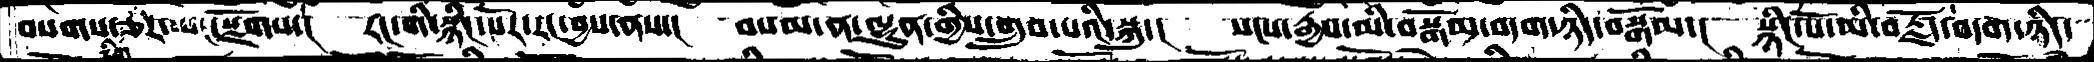བསགས་ཅིག་ཅིར་ཡང་སྫོགས་།  རང་གི་སྙིང་པོར་རང་བྱས་ནས་།  བསམ་ན་ལྷུན་གྱིས་གྲུབ་པའི་སྐུ་།  སངས་རྒྱས་མི་བསྒོམ་བདག་ཉིད་བསྒོམ་།  སྙིང་པོ་མི་བརྗོད་བདག་ཉིད་
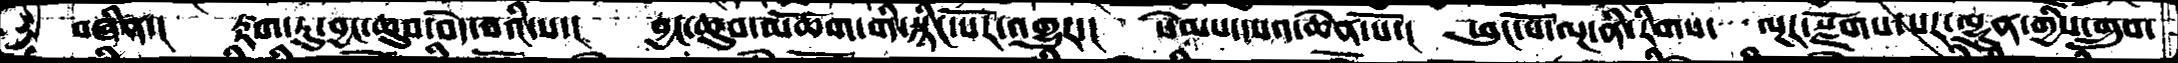བཞིན་།  རྟག་ཏུ་བྱང་ཆུབ་བདེ་བའི་ས་།  བྱང་ཆུབ་མཆོག་གི་སྙིང་པོར་འགྱུར་།  སེམས་དཔའ་ཆེན་པོ་།  ཕུང་པོ་ལྔ་ནི་རིགས་་་ལྔར་སྫོགས་པར་ལྷུན་གྱིས་གྲུབ་
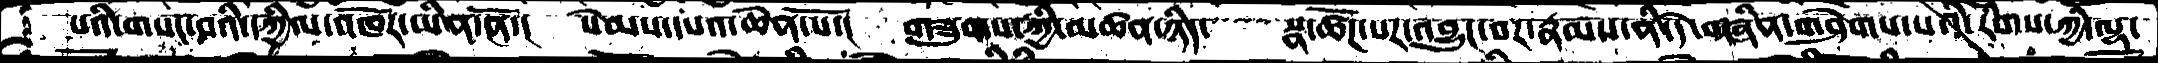པའི་གསང་བའི་དཀྱིལ་འཁོར་ཡིན་ནོ་།  སེམས་དཔའ་ཆེན་པོ་།  གཟུགས་ཀྱི་མཚན་ཉིད་་་་་་་སྣ་ཚོཌ་པར་འབྱུང་བར་རྣམས་ནི་དེ་བཞིན་གཤེགས་པའི་རིགས་ཀྱི་ལྷ་
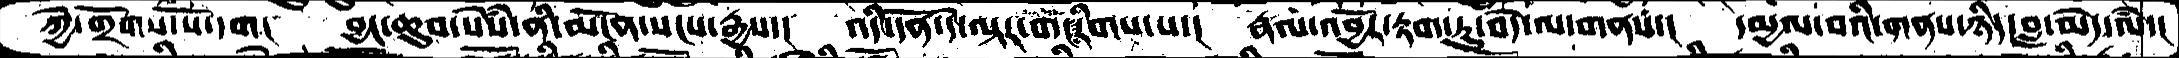ཀྱེ་གྲོགས་པོ་དག།  བྱང་ཆུབ་སེཾས་ནི་མངོན་སངས་རྒྱས་།  འདི་དོན་དེ་ལྟར་གང་རིགས་པ་།  རྣལ་འབྱོར་རྟག་ཏུ་བདེ་ལ་གནས་།  དམྱལ་བའི་གནས་ཉིད་བླ་མེད་ལཾ་།
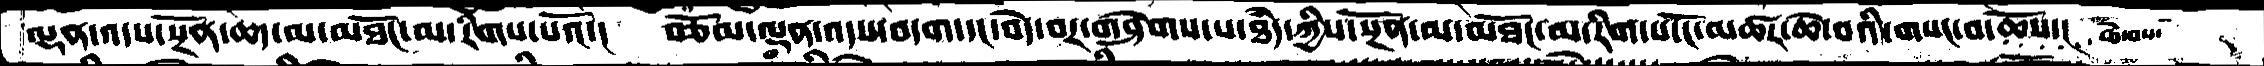ལྡན་འདས་སྔོན་ཆད་མ་མཐོང་མ་རིགས་པའོ་།  བཅོམ་ལྡན་འདས་བདག་དང་བདེ་བར་གཤགེས་པ་ཐདཾ་ཀྱིས་སྔོན་མ་མཐོང་མ་རིག་པ་ངོ་མཚར་ཆེ་བའི་གསང་བ་ཆེ་བས་ཆོས་།
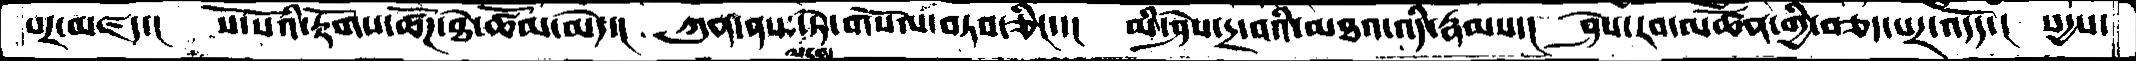པར་མཛད་།  སོ་སོའི་རྟོགས་ཚོཌ་ཐེ་ཚོམ་མེད་།  ཀུན་ནས་ལངས་ཏེགསོལ་བཏབ་ཅིང་་།  མི་ཤེས་དྲ་བའི་མཐའ་འདི་རྣམས་།  ཤེས་རབ་མཚོན་གྱི་བཅད་པར་འདོད་།  སདྱས་
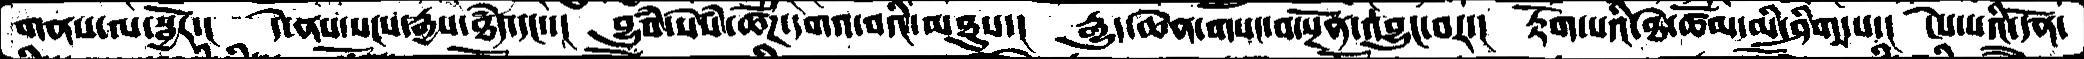གནས་ལ་སྦྱོར་།  དེ་ནས་སངས་རྒྱས་ཐདཾ་དང་་།  བྱུཾབ་སེཾས་ཚོཌ་དགའ་བའི་མཐུས་།  རྒྱུད་ཆེན་གསང་བ་སྔོན་འབྱུང་བར་།  རྟོག་པའི་ཐེ་ཚོམ་མི་ཤིགས་པ་།  ངེས་པའི་དོན་
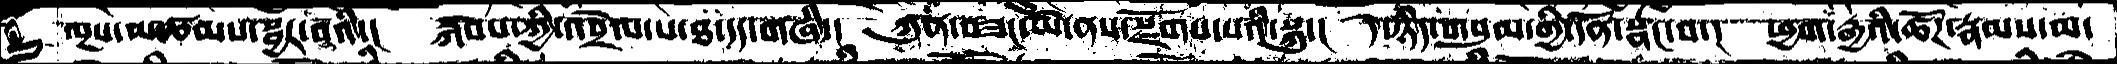ལྔས་མཚམས་སྦྱོར་བའི་།  སྐབས་ཀྱི་འབྲེལ་པ་ཐ་དད་གཞི་།  ཀུན་བཟང་ཡེ་ནས་སྫོགས་པའི་སྐུ་།  དེ་ཉིད་གསུམ་གྱི་དོན་སྣང་བ་།  ཕྱག་རྒྱའི་ཚོཌ་རྣམས་མ་
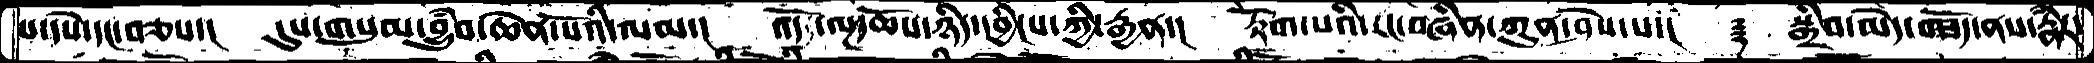པ་དཔེ་དང་བཅས་།  དུས་གསུམ་བྱུཾབ་ཆེན་པོའི་ལམ་།  འོད་ལྔ་ཆོས་ཉིད་དབྱིངས་ཀྱི་རྒྱན་།  རྟོག་པའི་རང་བཞིན་ཀུན་ཤེས་པ་།  ༈  སྒྲིབ་མེད་གཟོད་ནས་རྣཾར་
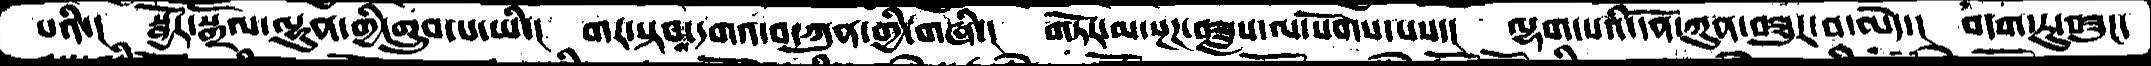པའི་།  སྦྱོར་སྒྲོལ་ལྷུན་གྱི་གྲུབ་པ་ཡི་།  གར་སྟབས་དགའ་བ་ཀུན་གྱི་གཞི་།  གཏོར་མ་སྔཌ་བཟླས་ལ་སོགས་པས་།  ལྷག་པའི་དོན་ཀུན་བཟུར་བ་མེད་།  བདག་ཏུ་བཟུང་
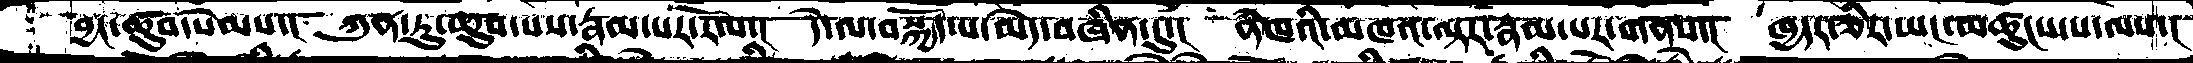བྱང་ཆུབ་སེམས་།  ཀུན་ཏུ་ཆུབ་པས་རྣམ་པར་རོལ་།  དེ་ལ་བསྐྱོད་པ་མེད་བཞིན་དུ་།  ནཾཁའི་མཁའ་ལྟར་རྣམ་པར་གནས་།  ཁྱདར་ཅིར་ཡང་མཚུངས་པ་ལས་།
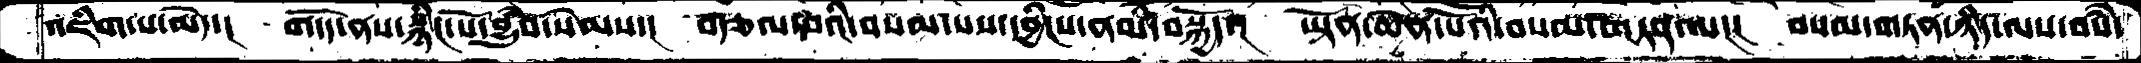འཇིག་པ་མེད་།  གདོད་ནས་སྙིང་པོ་བྱུཾབ་སེམས་།  བརྩལ་བའི་བསམ་པས་དབྱིངས་ནམ་བསྐྱོད་།  ཡྟོན་ཆེན་པོའི་བསམ་གཏན་ལ།།  བསམ་གཏན་ཉིད་ལས་བསཾ་
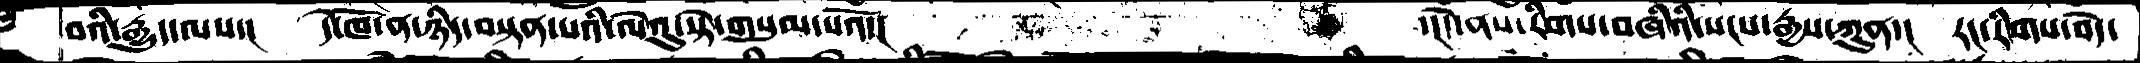བའི་རྒྱུད་ལས་།  དེ་ཁོ་ན་ཉིད་བསྟན་པའི་ལེའུ་སྟེ་གསུམ་པའོ་།    ་།དེ་ནས་རིགས་བཞིའི་སངས་རྒྱས་ཀུན་།  རང་རིགས་བདེ་
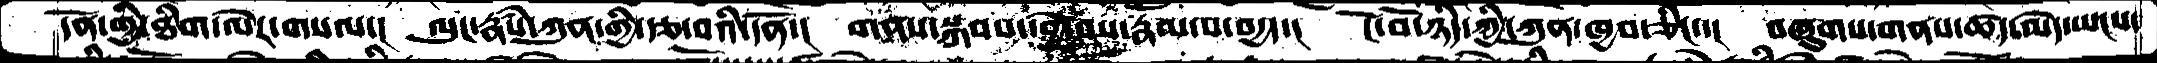དོན་གྱི་ཐིག་ལེར་གསལ་།  ལུང་རྣཾས་ཀུན་གྱི་རྩ་བའི་དོན་།  གནས་སྐབས་དབྱེ་བས་རྣམ་པ་བདྱད་།  ངོ་བོ་ཉིད་ཀྱི་ཀུན་ཁྱབ་ཅིང་་།  བཞུགས་གནས་ཚད་མེད་ཡངས་
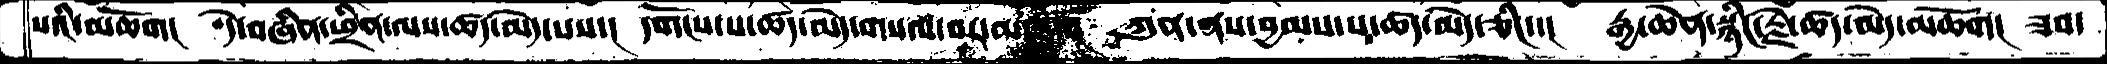པའི་མཆོག།  དེ་བཞིན་ཕྲིན་ལས་ཚད་མེད་པས་།  དགོངས་པ་ཚད་མེད་གསལ་བར་མཁྱེན་།  ཀུན་ནས་བྱམས་པ་ཚད་མེད་ཅིང་་  རྒྱ་ཆེན་སྙིང་རྗེ་ཚད་མེད་མཆོག།  ཟབ་
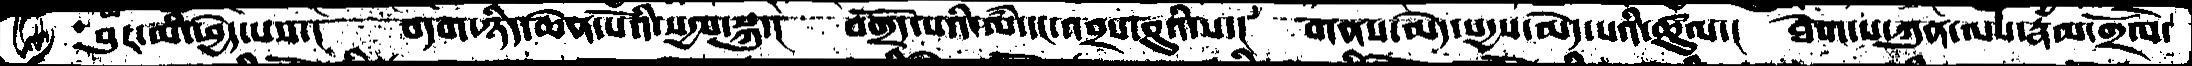བུར་མི་ཕྱེད་པས་།  བདག་ཉིད་ཆེན་པོའི་སདྱས་སྐུ་།  བགྲོད་པའི་ལཾ་དང་འབྲས་བུའི་ས་།  གནས་མེད་སདྱས་མེད་པའི་ཚུལ་།  ཐེག་པ་ཀུན་ལས་རྣམ་གྲོལ་
